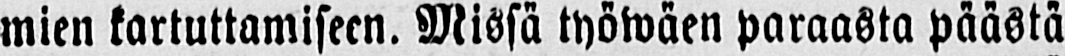mien kartuttamiseen. Missä työwäen paraasta päästä
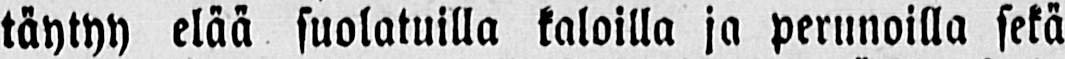täytyy elää suolatuilla kaloilla ja perunoilla sekä
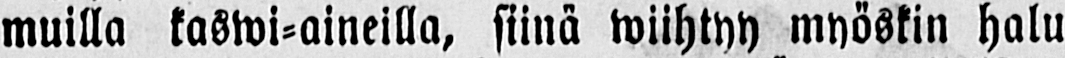muilla kaswi-aineilla, siinä wiihtyy myöskin halu
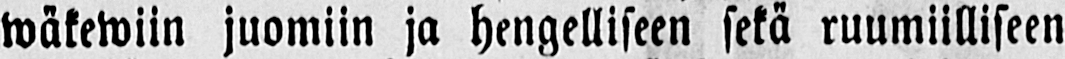wäkewiin juomiin ja hengelliseen sekä ruumiilliseen
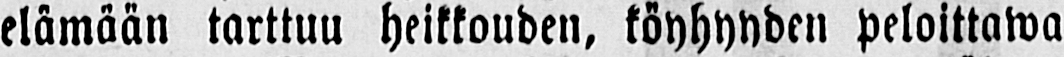elämään tarttuu heikkouden, köyhyyden peloittawa
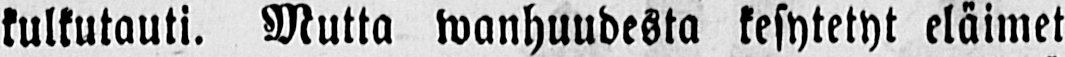kulkutauti. Mutta wanhuudesta kesytetyt eläimet
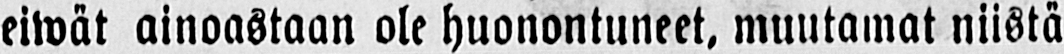eiwät ainoastaan ole huonontuneet, muutamat niistä
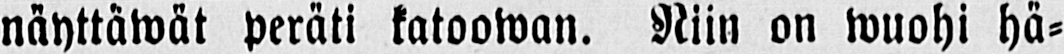näyttäwät peräti katoowan. Niin on wuohi hä-
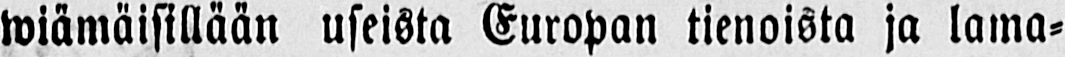wiämäisillään useista Europan tienoista ja lama-
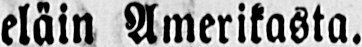eläin Amerikasta.
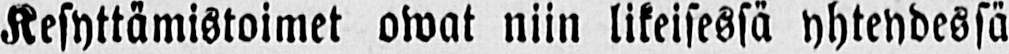Kesyttämistoimet owat niin likeisessä yhteydessä
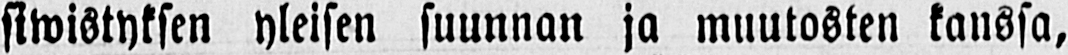siwistyksen yleisen suunnan ja muutosten kanssa,
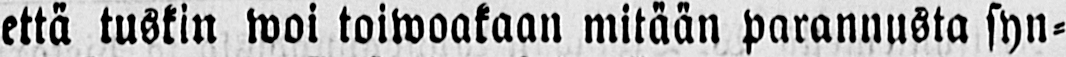että tuskin woi toiwoakaan mitään parannusta syn-
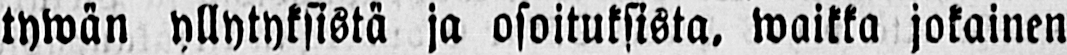tywän yllytyksistä ja osoituksista, waikka jokainen
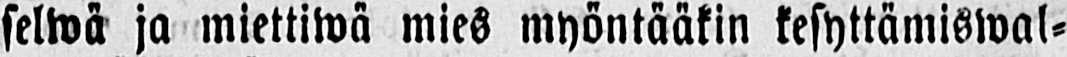selwä ja miettiwä mies myöntääkin kesyttämiswal-
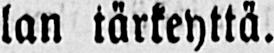lan tärkeyttä.
